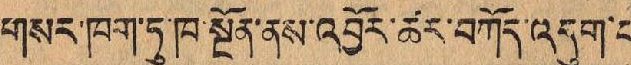གསར་ཁག་ཏུ་ཁ་སྔོན་ནས་འབྱོར་ཚར་བཀོད་འདུག་པ་
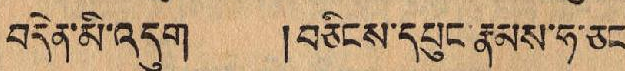བདེན་མི་འདུག །བཅིངས་དཔུང་རྣམས་ཧ་ཅང་
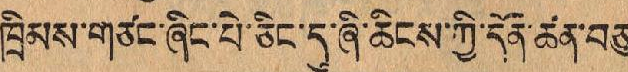ཁྲིམས་གཙང་ཞིང་པེ་ཅིང་དུ་ཞི་ཆིངས་ཀྱི་དོན་ཚན་བཅུ་
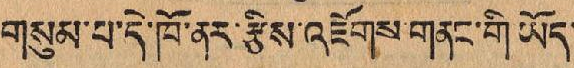གསུམ་པ་དེ་ཁོ་ནང་རྩིས་འཇོགས་གནང་གི་ཡོད་
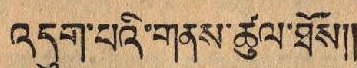འདུག་པའི་གནས་ཚུལ་ཐོས།།
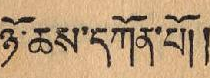ཉོ་ཆས་དཀོན་པོ།།
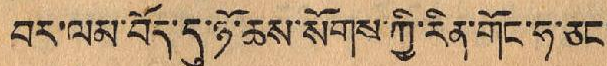བར་ལམ་བོད་དུ་ཉོ་ཆས་སོགས་ཀྱི་རིན་གོང་ཧ་ཅང་
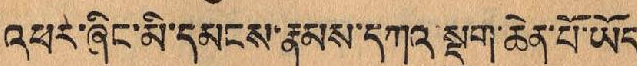འཕར་ཞིང་མི་དམངས་རྣམས་དཀའ་སྡུག་ཆེན་པོ་ཡོད་
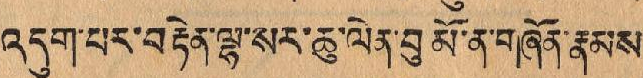འདུག་པར་བརྟེན་ལྷ་སར་ཆུ་ལེན་བུ་མོ་ན་གཞོན་རྣམས་
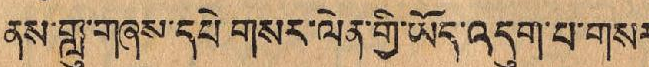ནས་གླུ་གཞས་དཔེ་གསར་ལེན་གྱི་ཡོད་འདུག་པ་གསར་
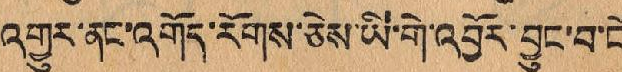འགྱུར་ནང་འགོད་རོགས་ཅེས་ཡི་གེ་འབྱོར་བྱུང་བ་ངོ་
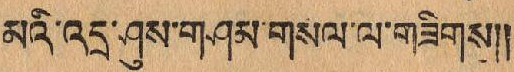མའི་འདྲ་ཤུས་གཤམ་གསལ་ལ་གཟིགས།།
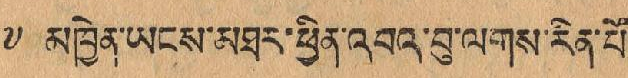༸ མཁྱེན་ཡངས་མཐར་ཕྱིན་འབའ་བུ་ལགས་རིན་པོ་
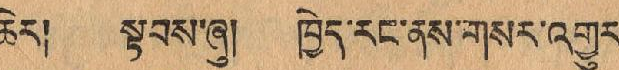ཆེར། སྟབས་ཞུ། ཁྱེད་རང་ནས་གསར་འགྱུར་
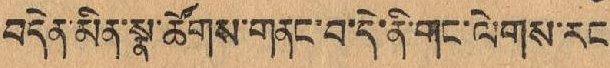བདེན་མིན་སྣ་ཚོགས་གནང་བ་དེ་ནི་གང་ལེགས་རང་
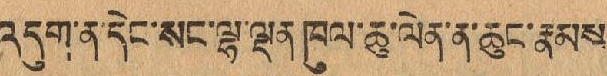འདུག་ན་དེང་སང་ལྷ་ལྡན་ཁུལ་ཆུ་ལེན་ན་ཆུང་རྣམས་
